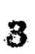3
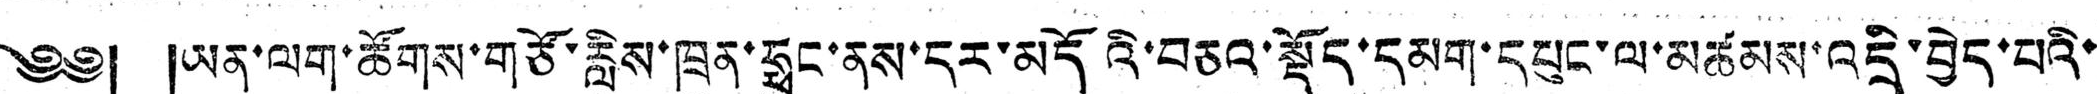༄༅། །ཡན་ལག་ཚོགས་གཙོ་རླིས་ཁྲུན་ཧྥང་ནས་དར་མདོའི་བཅའ་སྡོད་དམག་དཔུང་ལ་མཚམས་འདྲི་བྱེད་པའི་
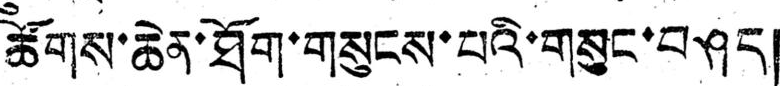ཚོགས་ཆེན་ཐོག་གསུངས་པའི་གསུང་བཤད།
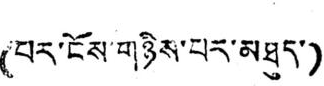(པར་ངོས་གཉིས་པར་མཐུད་)
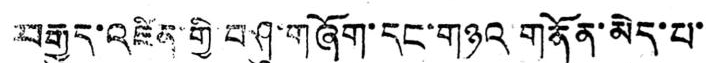བརྒྱུད་འཛིན་གྱི་བཤུ་གཞོག་དང་གཉའ་གནོན་མེད་པ་་
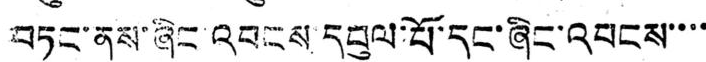བཏང་ནས་ཞིང་འབངས་དབུལ་པོ་དང་ཞིང་འབངས་་་་
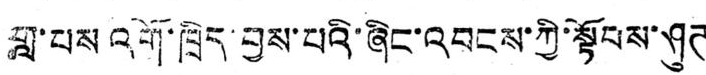གླ་པས འགོ་ཁྲིད་བྱས་པའི་ཞིང་འབངས་ཀྱི་སྟོབས་ཤུཊ
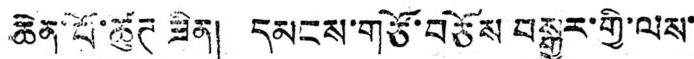ཆེན་པོ་ཚུཊ ཟིན། དམངས་གཙོ་བཅོས བསྒྱུར་གྱི་ལས་་
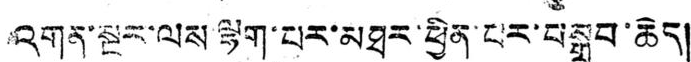འགན་སྔར་ལས་ལྷག་པར་མཐར་ཕྱིན་པར་བསྒྲུབ་ཆེད།
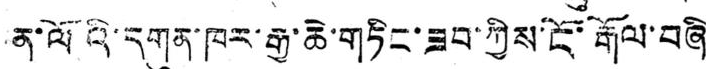ན་ལོའི་དགུན་ཁར་རྒྱ་ཆེ་གཏིང་ཟབ་ཀྱིས་ངོ་རྒོལ་བཞི
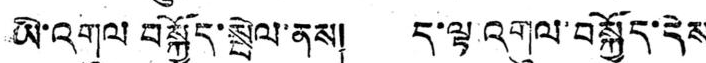ཡི་འགུལ བསྐྱོད་སྤེལ་ནས། ད་ལྟ འགུལ་བསྐྱོད་དེས
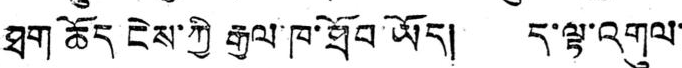ཐག ཆོད ངེས་ཀྱི རྒྱལ་ཁ་ཐོབ་ཡོད། ད་ལྟ་འགུལ་་
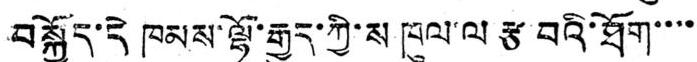བསྐྱོད་དེ ཁམས་ལྷོ་རྒྱུད་ཀྱི་ས ཁུལ་ལ རྩ་བའི་ཐོག་་་་་
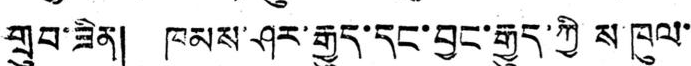གྲུབ་ཟིན། ཁམས་ཤར་རྒྱུད་དང་བྱང་རྒྱུད་ཀྱི ས་ཁུལ་་
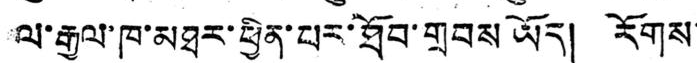ལ་རྒྱལ་ཁ་མཐར་ཕྱིན་པར་ཐོབ་གྲབས ཡོད། རོགས་་
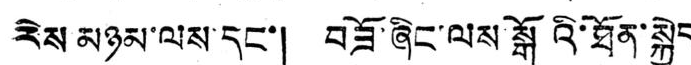རེས་མཉམ་ལས་དང་། བཟོ་ཞིང་ལས་སྒོའི་ཐོན་སྐྱེད་
